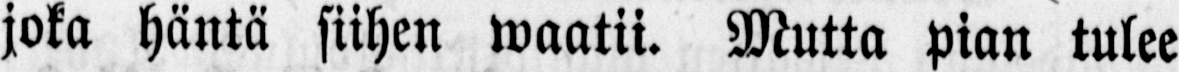joka häntä siihen waatii. Mutta pian tulee
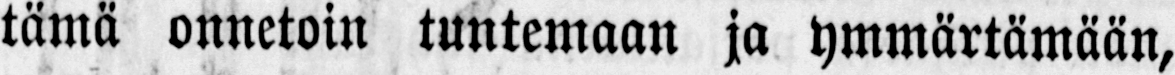tämä onnetoin tuntemaan ja ymmärtämään,
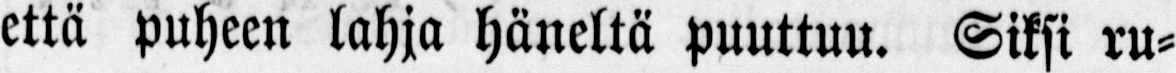että puheen lahja häneltä puuttuu. Siksi ru-
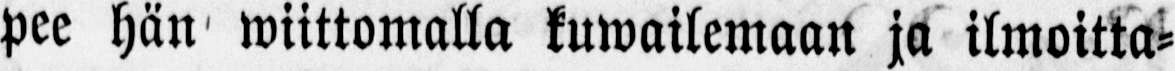pee hän wiittomalla kuwailemaan ja ilmoitta-
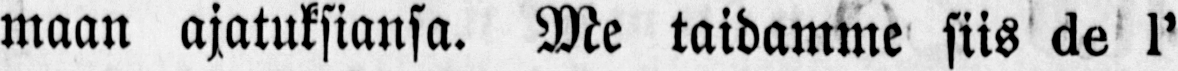maan ajatuksiansa. Me taidamme siis de l'
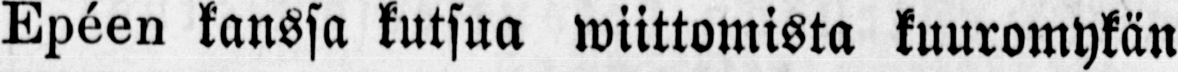Epéen kanssa kutsua wiittomista kuuromykän
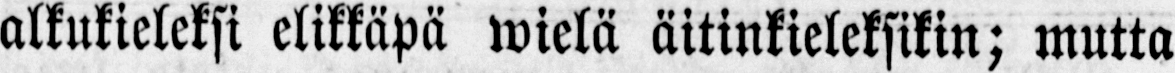alkukieleksi elikkäpä wielä äitinkieleksikin; mutta
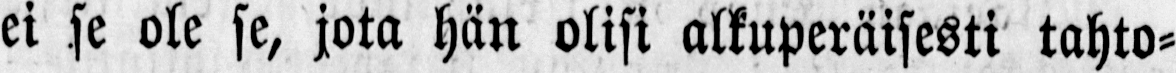ei se ole se, jota hän olisi alkuperäisesti tahto-
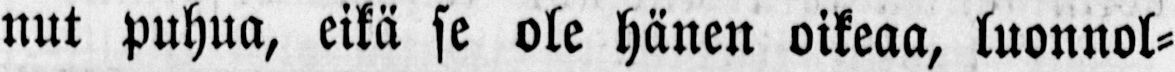nut puhua, eikä se ole hänen oikeaa, luonnol-
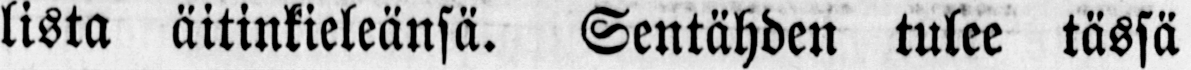lista äitinkieleänsä. Sentähden tulee tässä
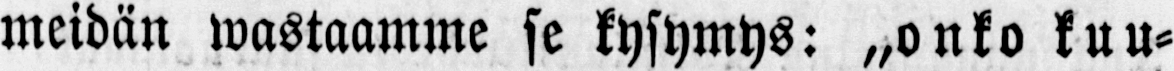meidän wastaamme se kysymys: „onko kuu-
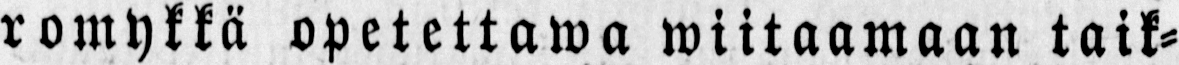romykkä opetettawa wiitaamaan taik-
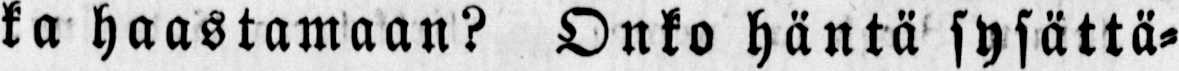ka haastamaan? Onko häntä sysättä-
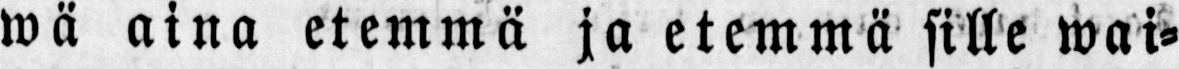wä aina etemmä ja etemmä sille wai-
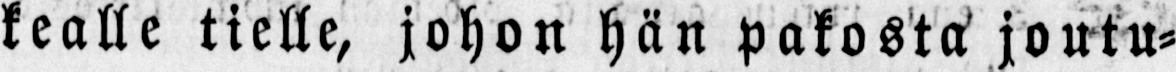kealle tielle, johon hän pakosta joutu-
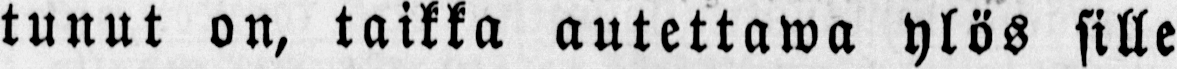tunut on, taikka autettawa ylös sille
